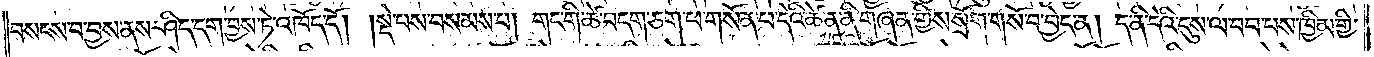བསངས་པ་བྱས་ནས་ཤིད་དག་བྱས་ཏེ་འཁོད་དོ། །སྡེ་པས་བསམས་པ། གང་གི་ཚེ་བདག་ཅག་ཕ་གསོན་པ་དེའི་ཚེ་ན་ནི་གཞན་གྱིས་སྲོག་གསོ་བ་བྱེད་ན། ད་ནི་དེའི་དུས་ལ་བབ་པས་ཁྱིམ་གྱི་
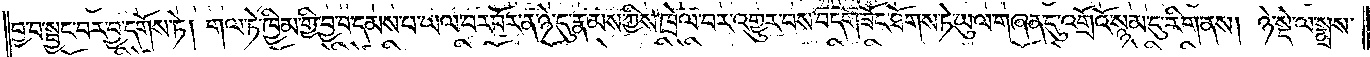བྱ་བ་སྦྱང་བར་བྱ་དགོས་ཏེ། གལ་ཏེ་ཁྱིམ་གྱི་བྱ་བ་དམས་པ་ཡལ་བར་བོར་ན་ཉེ་དུ་རྣམས་ཀྱིས་ཁྲེལ་བར་འགྱུར་བས་བདག་ཟོང་ཐོགས་ཏེ་ཡུལ་གཞན་དུ་འགྲོའོ་སྙམ་དུ་རིག་ནས། ཉེ་སྡེ་ལ་སྨྲས་
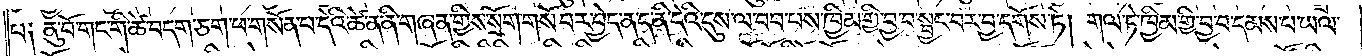པ༑ ནུ་བོ་གང་གི་ཚེ་བདག་ཅག་ཕ་གསོན་པ་དེའི་ཚེ་ན་ནི་གཞན་གྱིས་སྲོག་གསོ་བར་བྱེད་ན་ད་ནི་དེའི་དུས་ལ་བབ་པས་ཁྱིམ་གྱི་བྱ་བ་སྦྱང་བར་བྱ་དགོས་ཏེ། གལ་ཏེ་ཁྱིམ་གྱི་བྱ་བ་དམས་པ་ཡལ་
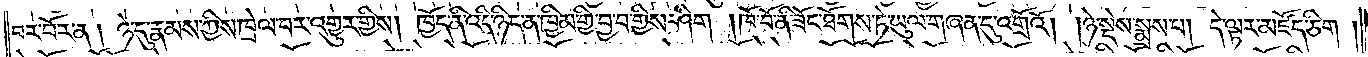བར་བོར་ན། ཉེ་དུ་རྣམས་ཀྱིས་ཁྲེལ་བར་འགྱུར་གྱིས། ཁྱོད་ནི་འདི་ཉིད་ན་ཁྱིམ་གྱི་བྱ་བ་གྱིས་ཤིག །ཁོ་བོ་ནི་ཟོང་ཐོགས་ཏེ་ཡུལ་གཞན་དུ་འགྲོའོ། །ཉེ་སྡེས་སྨྲས་པ། དེ་ལྟར་མཛོད་ཅིག །
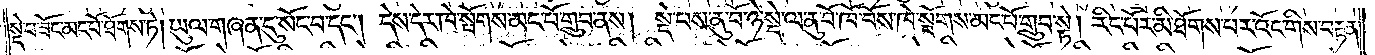སྡེ་བ་ཟོང་མང་པོ་ཐོགས་ཏེ། ཡུལ་གཞན་དུ་སོང་བ་དང༌། དེས་དེར་ཁེ་སྤོགས་མང་པོ་གྲུབ་ནས། སྡེ་པས་ནུ་བོ་ཉེ་སྡེ་ལ་ནུ་བོ་ཁོ་བོས་ཁེ་སྤོགས་མང་པོ་གྲུབ་སྟེ། རིང་པོར་མི་ཐོགས་པར་འོང་གིས་བརྟན་
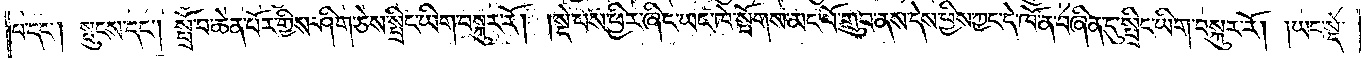པ་དང༌། སྤུངས་དང༌། སྤྲོ་བ་ཆེན་པོར་གྱིས་ཤིག་ཅེས་སྤྲིང་ཡིག་བསྐུར་རོ། །སྡེ་པས་ཕྱིར་ཞིང་ཡང་ཁེ་སྤོགས་མང་པོ་གྲུབ་ནས་དེས་ཕྱིས་ཀྱང་དེ་ཁོ་ན་བཞིན་དུ་སྤྲིང་ཡིག་བསྐུར་རོ། །ཡང་སྡེ་
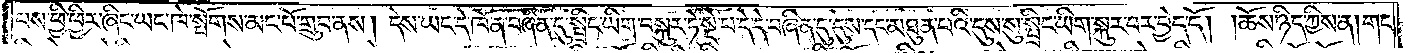པས་ཕྱི་ཕྱིར་ཞིང་ཡང་ཁེ་སྤོགས་མང་པོ་གྲུབ་ནས། དེས་ཡང་དེ་ཁོ་ན་བཞིན་དུ་སྤྲིང་ཡིག་བསྐུར་ཏེ་སྡེ་པ་དེ་དེ་བཞིན་དུ་དུས་དང་མཐུན་པའི་དུས་སུ་སྤྲིང་ཡིག་སྐུར་བར་བྱེད་དོ། །ཆོས་ཉིད་ཀྱིས་ན། གང་
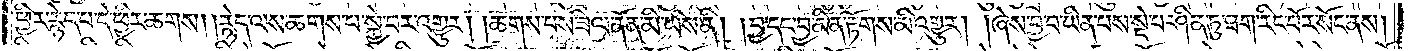ཕྱིར་རྙེད་པ་དེ་ཕྱིར་ཆགས། །རྙེད་ལས་ཆགས་པ་སྐྱེ་བར་འགྱུར། །ཆགས་པས་ཟིལ་ནོན་མི་ཡིས་ནི། །བྱ་དང་བྱ་མིན་རྟོགས་མི་འགྱུར། །ཞེས་བྱ་བ་ཡིན་པས་སྡེ་པ་ཤིན་ཏུ་ཐག་རིང་པོར་སོང་ནས།
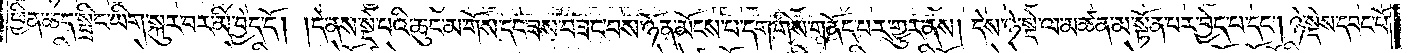ཕྱིན་ཆད་སྤྲིང་ཡིག་སྐུར་བར་མི་བྱེད་དོ། །དེ་ནས་སྡེ་པའི་ཆུང་མ་གོས་དང་ཟས་བཟང་བས་ཉོན་མོངས་པ་དག་གིས་གནོད་པར་གྱུར་ནས། དེས་ཉེ་སྡེ་ལ་མཚན་མ་སྟོན་པར་བྱེད་པ་དང༌། ཉེ་སྡེས་དབང་པོ་
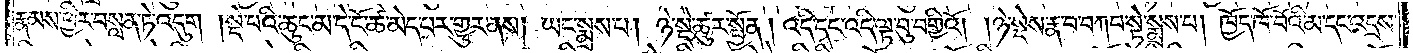རྣམས་ཕྱིར་བསླན་ཏེ་འདུག །སྡེ་པའི་ཆུང་མ་དེ་ངོ་ཚ་མེད་པར་གྱུར་ནས། ཡང་སྨྲས་པ། ཉེ་སྡེ་ཚུར་སྤྱོན། འདི་དང་འདི་ལྟ་བུ་བགྱིའོ། །ཉེ་སྡེས་རྣ་བ་བཀབ་སྟེ་སྨྲས་པ། ཁྱོད་ཁོ་བོའི་མ་དང་འདྲས་
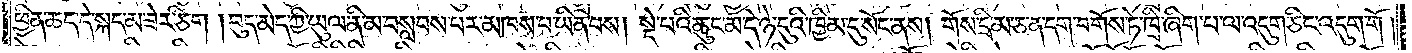ཕྱིན་ཆད་དེ་སྐད་མ་ཟེར་ཅིག །བུད་མེད་ཀྱི་ཡུལ་ནི་མ་བསླབས་པར་མཁས་པ་ཡིན་པས། སྡེ་པའི་ཆུང་མ་དེ་ཉེ་དུའི་ཁྱིམ་དུ་སོང་ནས། གོས་དྲི་མ་ཅན་དག་བགོས་ཏེ་ཁྲི་ཞིག་པ་ལ་འདུག་ཅིང་འདུག་གོ །
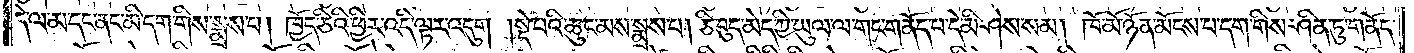དེ་ལ་མ་དང་ནང་མི་དག་གིས་སྨྲས་པ། ཁྱོད་ཅིའི་ཕྱིར་འདི་ལྟར་འདུག །སྡེ་པའི་ཆུང་མས་སྨྲས་པ། ཅི་བུད་མེད་ཀྱི་ཡུལ་ལ་གང་གནོད་པ་དེ་མི་ཤེས་སམ། ཁོ་མོ་ཉོན་མོངས་པ་དག་གིས་ཤིན་ཏུ་གནོད་
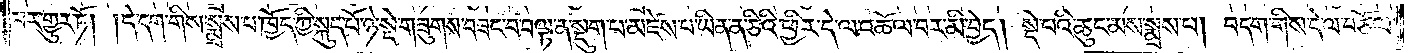པར་གྱུར་ཏོ། །དེ་དག་གིས་སྨྲས་པ་ཁྱོད་ཀྱི་སྐུད་པོ་ཉེ་སྡེ་གཟུགས་བཟང་བ་བལྟ་ན་སྡུག་པ་མཛེས་པ་ཡིན་ན་ཅིའི་ཕྱིར་དེ་ལ་འཆོལ་བར་མི་བྱེད། སྡེ་པའི་ཆུང་མས་སྨྲས་པ། བདག་གིས་དེ་ལ་བཅོལ་
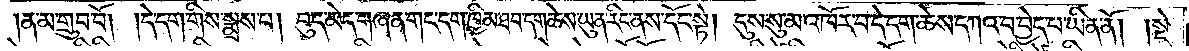།ན་མ་གྲུབ་བོ། །དེ་དག་གིས་སྨྲས་པ། བུད་མེད་གཞན་གང་དག་ཁྱིམ་ཐབ་དག་ཆེས་ཡུན་རིང་ནས་དོང་སྟེ། དུས་སུ་མ་འཁོར་བ་དེ་དག་ཆེས་དཀའ་བ་བྱེད་པ་ཡིན་ནོ། །སྡེ་
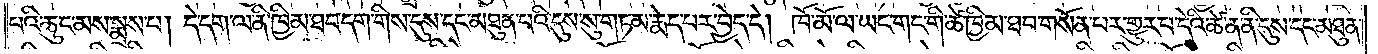པའི་ཆུང་མས་སྨྲས་པ། དེ་དག་ལ་ནི་ཁྱིམ་ཐབ་དག་གིས་དུས་དང་མཐུན་པའི་དུས་སུ་གཏམ་རྨེད་པར་བྱེད་དེ། ཁོ་མོ་ལ་ཡང་གང་གི་ཚེ་ཁྱིམ་ཐབ་གསོན་པར་གྱུར་པ་དེའི་ཚེ་ན་ནི་དུས་དང་མཐུན་
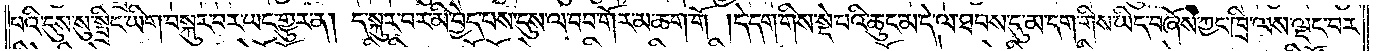པའི་དུས་སུ་སྤྲིང་ཡིག་བསྐུར་བར་ཡང་གྱུར་ན། ད་སྐུར་བར་མི་བྱེད་པས་དུས་ལ་བབ་གོར་མ་ཆག་གོ །དེ་དག་གིས་སྡེ་པའི་ཆུང་མ་དེ་ལ་ཐབས་དུ་མ་དག་གིས་ཡིད་བཞོས་ཀྱང་ཁྲི་ལས་ལྡང་བར་
